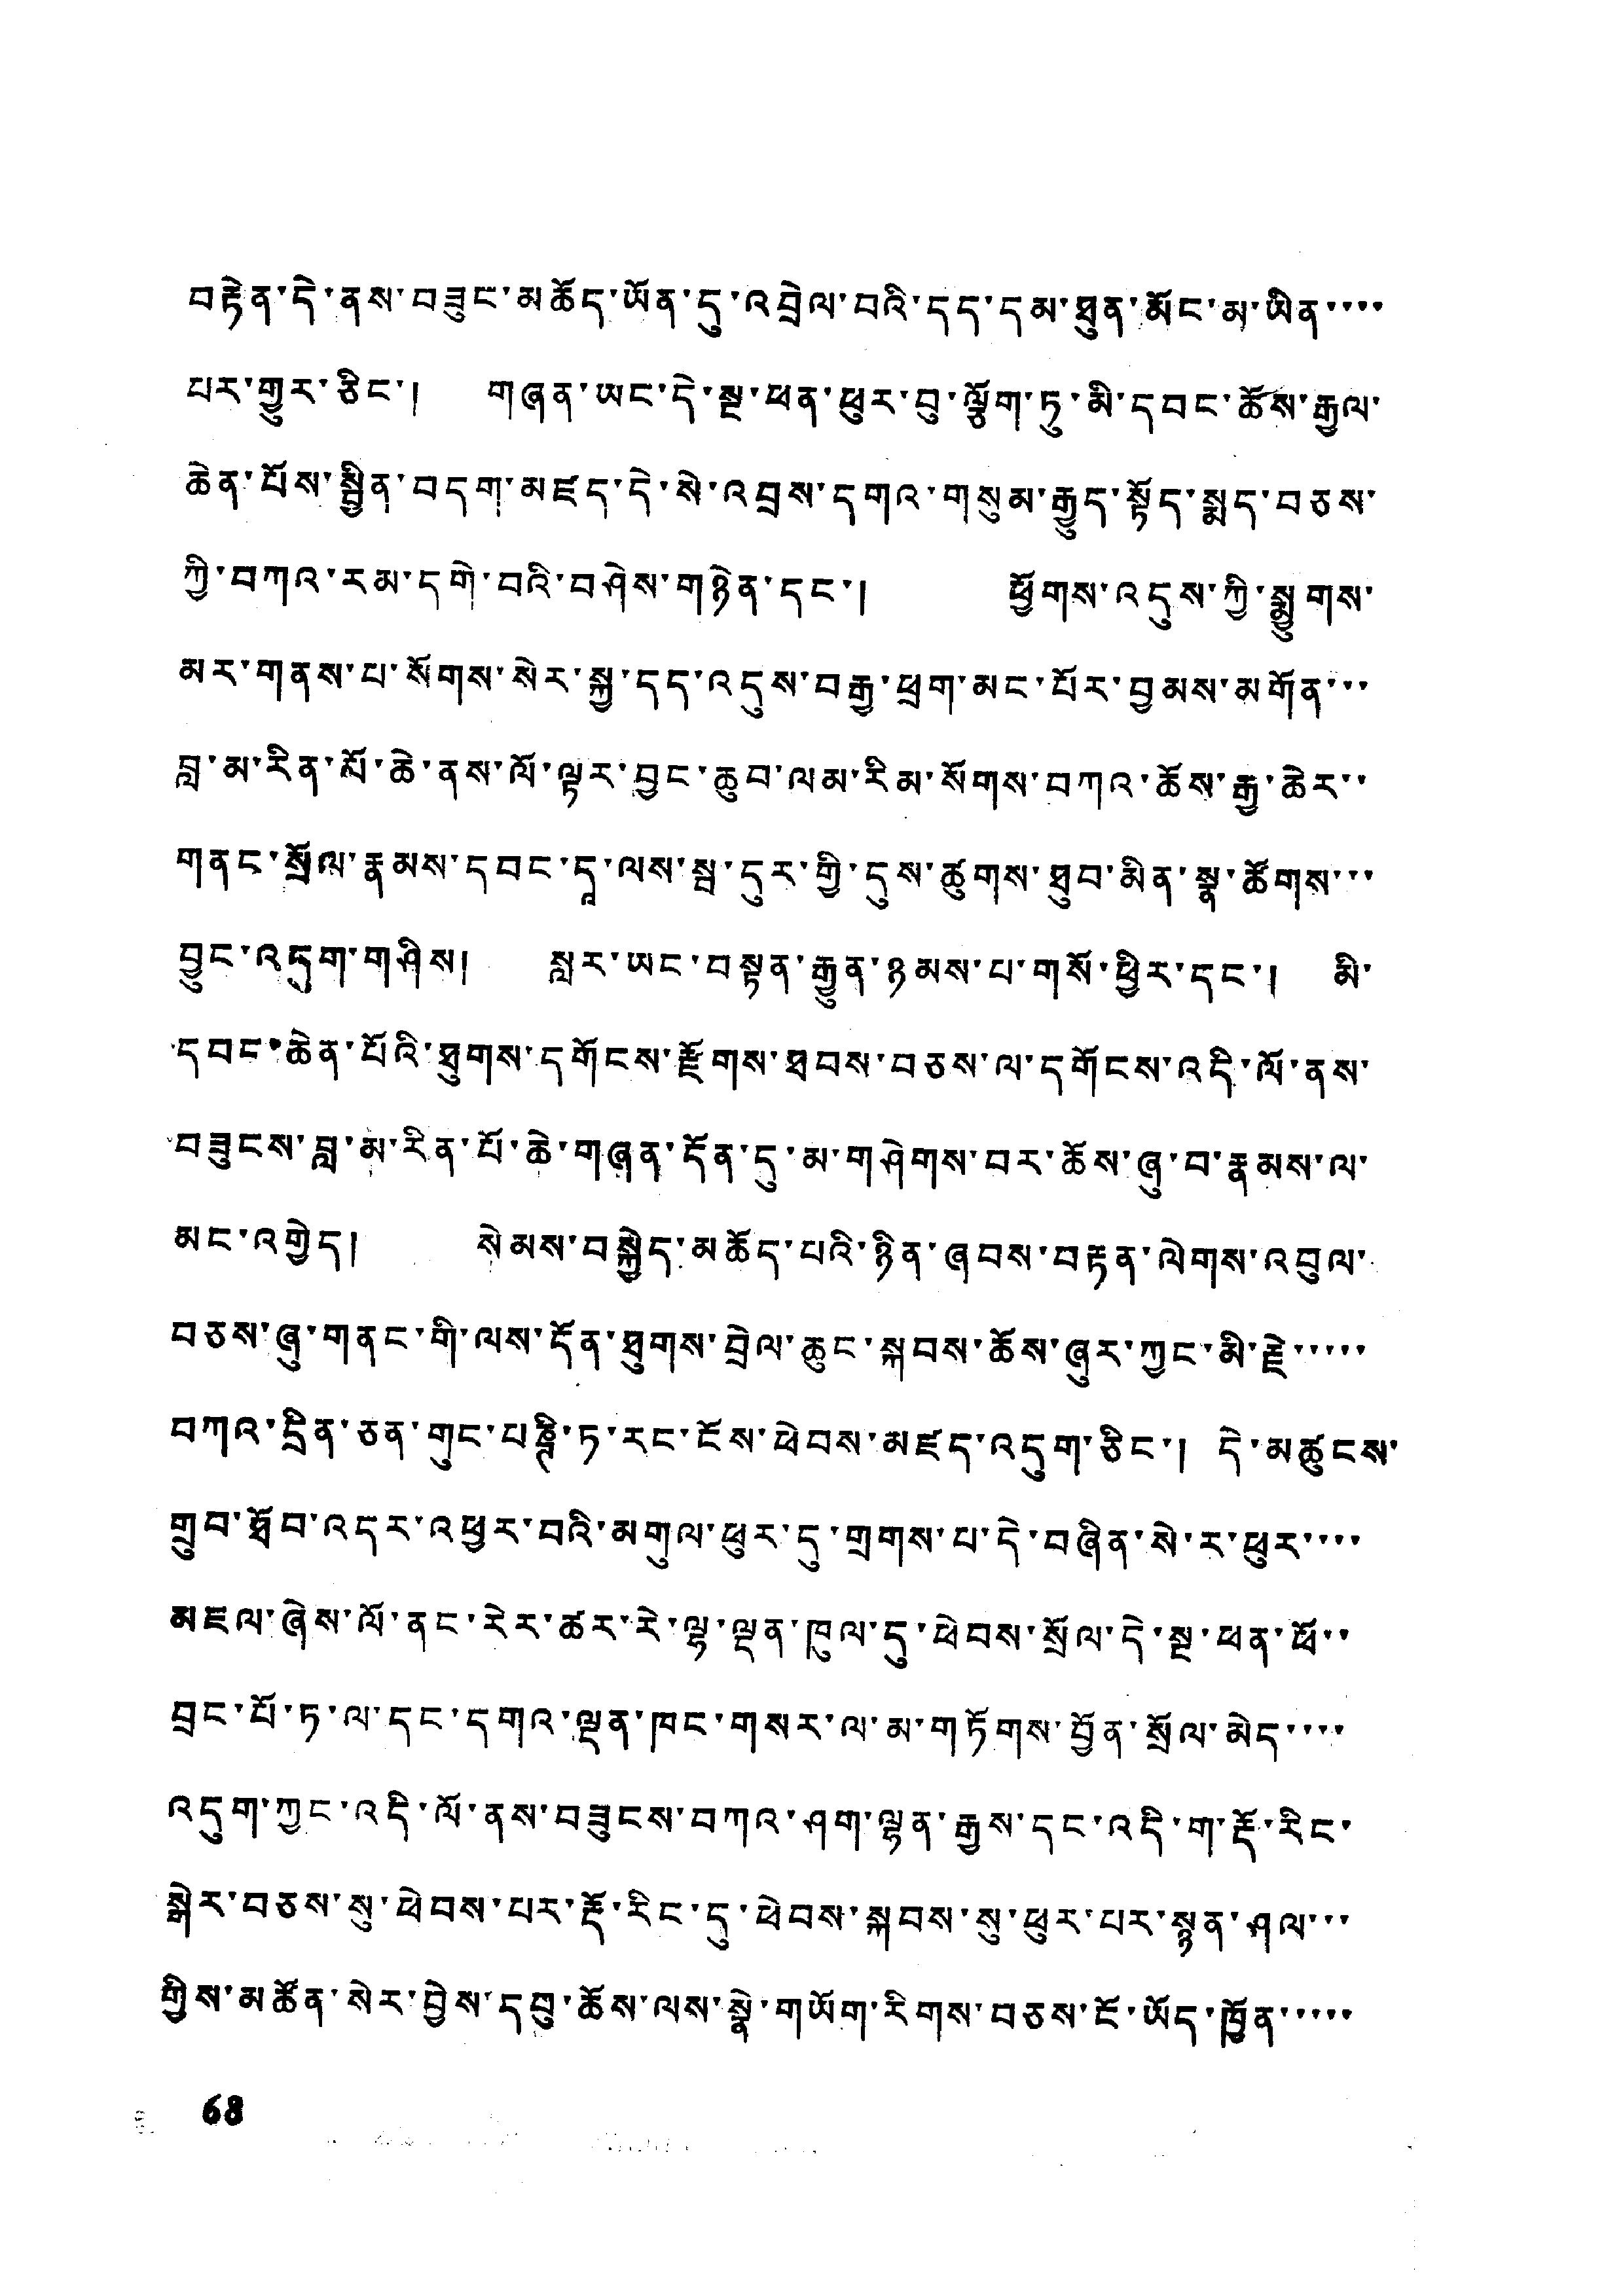བརྟེན་དེ་ནས་བཟུང་མཆོད་ཡོན་དུ་འབྲེལ་བའི་དད་དམ་ཐུན་མོང་མ་ཡིན་་་་
པར་གྱུར་ཅིང་། གཞན་ཡང་དེ་སྔ་ཕན་ཕུར་བུ་ལྕོག་ཏུ་མི་དབང་ཆོས་རྒྱལ་
ཆེན་པོས་སྦྱིན་བདག་མཛད་དེ་སེ་འབྲས་དགའ་གསུམ་རྒྱུད་སྟོད་སྨད་བཅས་
ཀྱི་བཀའ་རམ་དགེ་བའི་བཤེས་གཉེན་དང་། ཕྱོགས་འདུས་ཀྱི་སྨྱུགས་
མར་གནས་པ་སོགས་སེར་སྐྱ་དད་འདུས་བརྒྱ་ཕྲག་མང་པོར་བྱམས་མགོན་་་
བླ་མ་རིན་པོ་ཆེ་ནས་ལོ་ལྟར་བྱང་ཆུབ་ལམ་རིམ་སོགས་བཀའ་ཆོས་རྒྱ་ཆེར་
གནང་སྲོལ་རྣམས་དབང་དའ་ལས་སྦ་དུར་གྱི་དུས་ཚུགས་ཐུབ་མིན་སྣ་ཚོགས་་་
བྱུང་འདུག་གཤིས། སླར་ཡང་བསྟན་རྒྱུན་ཉམས་པ་གསོ་ཕྱིར་དང་། མི་
དབང་ཆེན་པོའི་ཐུགས་དགོངས་རྫོགས་ཐབས་བཅས་ལ་དགོངས་འདི་ལོ་ནས་
བཟུངས་བླ་མ་རིན་པོ་ཆེ་གཞན་དོན་དུ་མ་གཤེགས་བར་ཆོས་ཞུ་བ་རྣམས་ལ་
མང་འགྱེད། སེམས་བསྐྱེད་མཆོད་པའི་ཉིན་ཞབས་བརྟན་ལེགས་འབུལ་
བཅས་ཞུ་གནང་གི་ལས་དོན་ཐུགས་བྲེལ་ཆུང་སྐབས་ཆོས་ཞུར་ཀྱང་མི་རྗེ་་་་་
བཀའ་དྲིན་ཅན་གུང་པཎྚི་ཏ་རང་ངོས་ཕེབས་མཛད་འདུག་ཅིང་། དེ་མཚུངས་
གྲུབ་ཐོབ་འདར་འཕྱར་བའི་མགུལ་ཕུར་དུ་གྲགས་པ་དེ་བཞིན་སེ་ར་ཕུར་་་་
མཇལ་ཞེས་ལོ་ནང་རེར་ཚར་རེ་ལྷ་ལྡན་ཁུལ་དུ་ཕེབས་སྲོལ་དེ་སྔ་ཕན་ཕོ་་
བྲང་པོ་ཏ་ལ་དང་དགའ་ལྡན་ཁང་གསར་ལ་མ་གཏོགས་བྱོན་སྲོལ་མེད་་་་
འདུག་ཀྱང་འདི་ལོ་ནས་བཟུངས་བཀའ་ཤག་ལྷན་རྒྱས་དང་འདི་ག་རྡོ་རིང་
སྒེར་བཅས་སུ་ཕེབས་པར་རྡོ་རིང་དུ་ཕེབས་སྐབས་སུ་ཕུར་པར་སྙན་ཤལ་་་
གྱིས་མཚོན་སེར་བྱེས་དབུ་ཆོས་ལས་སྣེ་གཡོག་རིགས་བཅས་ངོ་ཡོད་ཁྱོན་་་་་
68
